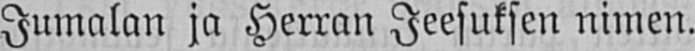Jumalan ja Herran Jeesuksen nimen.
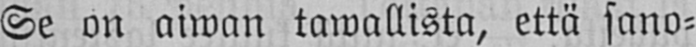Se on aiwan tawallista, että sano-
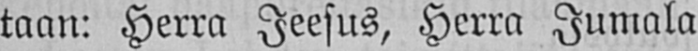taan: Herra Jeesus, Herra Jumala
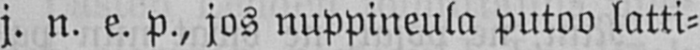j. n. e. p., jos nuppineula putoo latti-
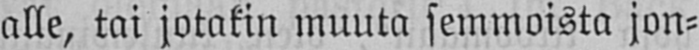alle, tai jotakin muuta semmoista jon-
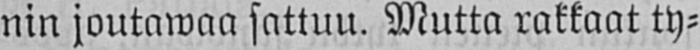nin joutawan sattuu. Mutta rakkaat ty-
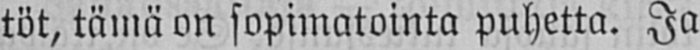töt, tämä on sopimatointa puhetta. Ja
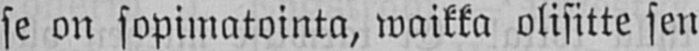se on sopimatointa, waikka olisitte sen
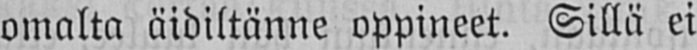omalta äidiltänne oppineet. Sillä ei
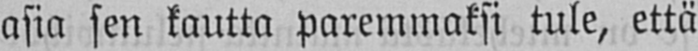asia sen kautta paremmaksi tule, että
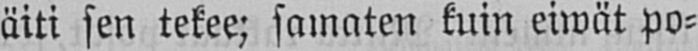äiti sen tekee; samaten kuin eiwät po-
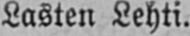Lasten Lehti.
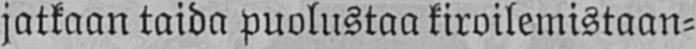jatkaan taida puolustaa kiroilemistaan-
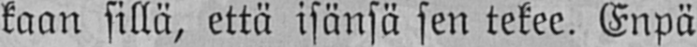kaan sillä, että isänsä sen tekee. Enpä
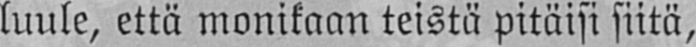luule, että monikaan teistä pitäisi siitä,
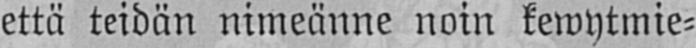että teidän nimeänne noin kewytmie-
